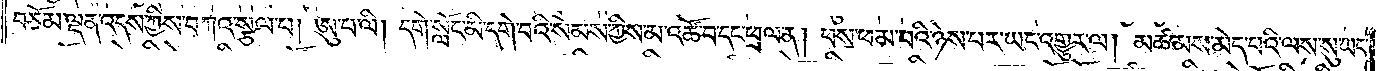བཅོམ་ལྡན་འདས་ཀྱིས་བཀའ་སྩལ་པ། ཨུ་པ་ལི། དགེ་སློང་མི་དགེ་བའི་སེམས་ཀྱིས་མ་འཚོ་བ་དང་ཕྲལ་ན། ཕས་ཕམ་པའི་ཉེས་པར་ཡང་འགྱུར་ལ། མཚམས་མེད་པའི་ལས་སུ་ཡང་
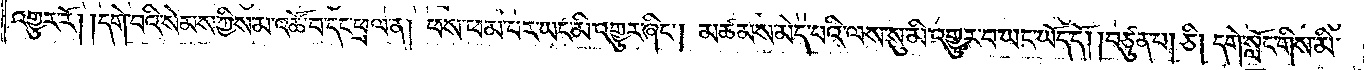འགྱུར་རོ། །དགེ་བའི་སེམས་ཀྱིས་མ་འཚོ་བ་དང་ཕྲལ་ན། ཕས་ཕམ་པར་ཡང་མི་འགྱུར་ཞིང༌། མཚམས་མེད་པའི་ལས་སུ་མི་འགྱུར་བ་ཡང་ཡོད་དོ། །བཙུན་པ། ཅི། དགེ་སློང་གིས་མི་
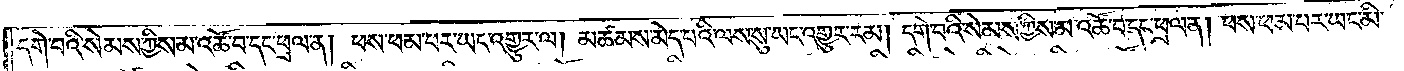དགེ་བའི་སེམས་ཀྱིས་མ་འཚོ་བ་དང་ཕྲལ་ན། ཕས་ཕམ་པར་ཡང་འགྱུར་ལ། མཚམས་མེད་པའི་ལས་སུ་ཡང་འགྱུར་རམ། དགེ་བའི་སེམས་ཀྱིས་མ་འཚོ་བ་དང་ཕྲལ་ན། ཕས་ཕམ་པར་ཡང་མི་
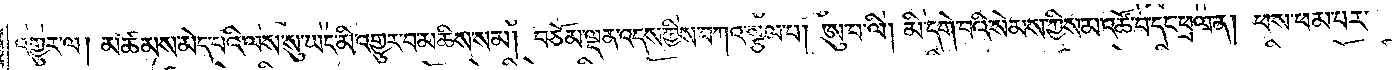འགྱུར་ལ། མཚམས་མེད་པའི་ལས་སུ་ཡང་མི་འགྱུར་བ་མཆིས་སམ། བཅོམ་ལྡན་འདས་ཀྱིས་བཀའ་སྩལ་པ། ཨུ་པ་ལི། མི་དགེ་བའི་སེམས་ཀྱིས་མ་འཚོ་བ་དང་ཕྲལ་ན། ཕས་ཕམ་པར་
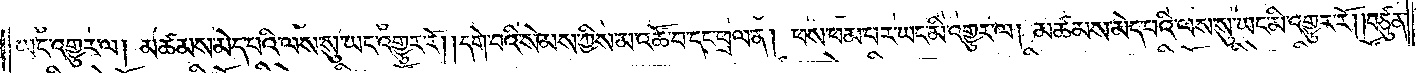ཡང་འགྱུར་ལ། མཚམས་མེད་པའི་ལས་སུ་ཡང་འགྱུར་རོ། །དགེ་བའི་སེམས་ཀྱིས་མ་འཚོ་བ་དང་ཕྲལ་ན། ཕས་ཕམ་པར་ཡང་མི་འགྱུར་ལ། མཚམས་མེད་པའི་ལས་སུ་ཡང་མི་འགྱུར་རོ། །བཙུན་
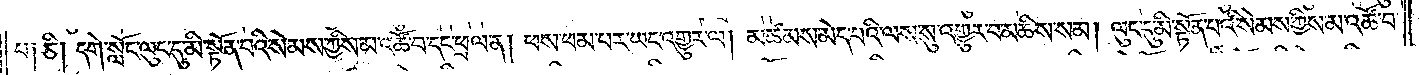པ༑ ཅི། དགེ་སློང་ལུང་དུ་མི་སྟོན་པའི་སེམས་ཀྱིས་མ་འཚོ་བ་དང་ཕྲལ་ན། ཕས་ཕམ་པར་ཡང་འགྱུར་ལ། མཚམས་མེད་པའི་ལས་སུ་འགྱུར་བ་མཆིས་སམ། ལུང་དུ་མི་སྟོན་པའི་སེམས་ཀྱིས་མ་འཚོ་བ་
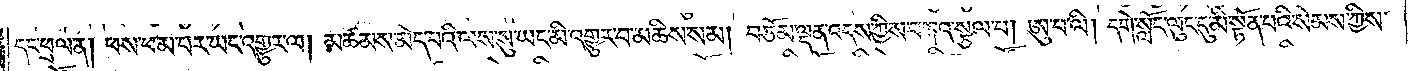དང་ཕྲལ་ན། ཕས་ཕམ་པར་ཡང་འགྱུར་ལ། མཚམས་མེད་པའི་ལས་སུ་ཡང་མི་འགྱུར་བ་མཆིས་སམ། བཅོམ་ལྡན་འདས་ཀྱིས་བཀའ་སྩལ་པ། ཨུ་པ་ལི། དགེ་སློང་ལུང་དུ་མི་སྟོན་པའི་སེམས་ཀྱིས་
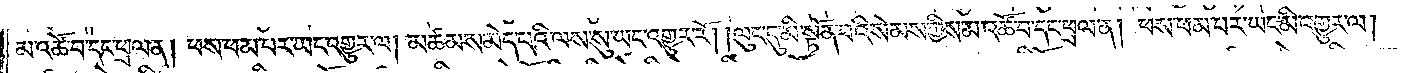མ་འཚོ་བ་དང་ཕྲལ་ན། ཕས་ཕམ་པར་ཡང་འགྱུར་ལ། མཚམས་མེད་པའི་ལས་སུ་ཡང་འགྱུར་རོ། །ལུང་དུ་མི་སྟོན་པའི་སེམས་ཀྱིས་མ་འཚོ་བ་དང་ཕྲལ་ན། ཕས་ཕམ་པར་ཡང་མི་འགྱུར་ལ།
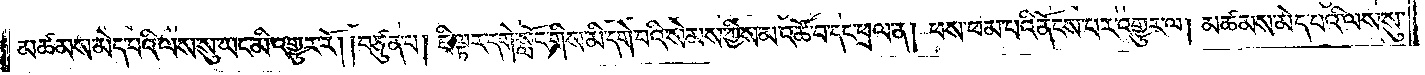མཚམས་མེད་པའི་ལས་སུ་ཡང་མི་འགྱུར་རོ། །བཙུན་པ། ཇི་ལྟར་དགེ་སློང་གིས་མི་དགེ་བའི་སེམས་ཀྱིས་མ་འཚོ་བ་དང་ཕྲལ་ན། ཕས་ཕམ་པའི་ནོངས་པར་འགྱུར་ལ། མཚམས་མེད་པའི་ལས་སུ་
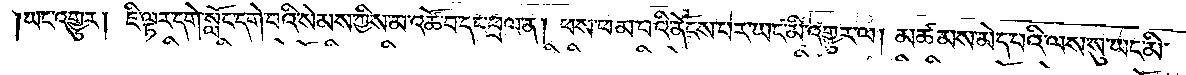ཡང་འགྱུར། ཇི་ལྟར་དགེ་སློང་དགེ་བའི་སེམས་ཀྱིས་མ་འཚོ་བ་དང་ཕྲལ་ན། ཕས་ཕམ་པའི་ནོངས་པར་ཡང་མི་འགྱུར་ལ། མཚམས་མེད་པའི་ལས་སུ་ཡང་མི་
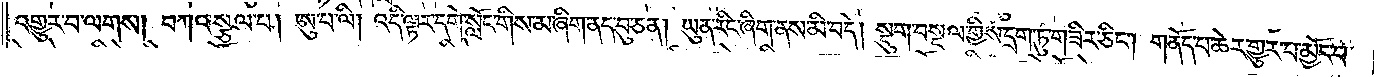འགྱུར་བ་ལགས། བཀའ་སྩལ་པ། ཨུ་པ་ལི། འདི་ལྟར་དགེ་སློང་གིས་མ་ཞིག་ནད་བུ་ཅན། ཡུན་རིང་ཞིག་ནས་མི་བདེ། སྡུག་བསྔལ་གྱིས་དྲག་ཏུ་གཟིར་ཅིང༌། གནོད་པ་ཆེར་གྱུར་པ་མྱོང་བ་
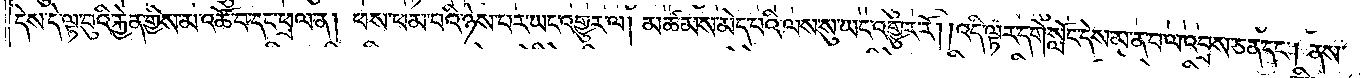དེས་དེ་ལྟ་བུའི་རྐྱེན་གྱིས་མ་འཚོ་བ་དང་ཕྲལ་ན། ཕས་ཕམ་པའི་ཉེས་པར་ཡང་འགྱུར་ལ། མཚམས་མེད་པའི་ལས་སུ་ཡང་འགྱུར་རོ། །འདི་ལྟར་དགེ་སློང་དེས་མ་ན་བ་ལ་འབྲས་ཅན་དང༌། ནས་
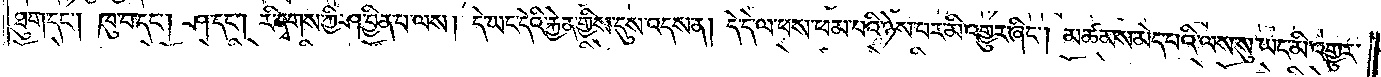ཐུག་དང༌། ཁུ་བ་དང༌། ཤ་དང༌། རི་དྭགས་ཀྱི་ཤ་བྱིན་པ་ལས། དེ་ཡང་དེའི་རྐྱེན་གྱིས་དུས་འདས་ན། དེ་དེ་ལ་ཕས་ཕམ་པའི་ཉེས་པར་མི་འགྱུར་ཞིང༌། མཚམས་མེད་པའི་ལས་སུ་ཡང་མི་འགྱུར་
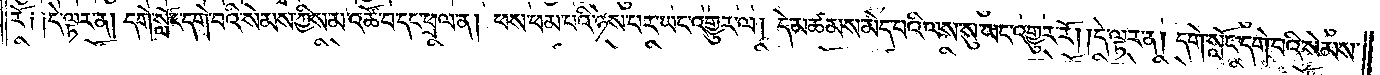རོ༑ ༑དེ་ལྟར་ན། དགེ་སློང་དགེ་བའི་སེམས་ཀྱིས་མ་འཚོ་བ་དང་ཕྲལ་ན། ཕས་ཕམ་པའི་ཉེས་པར་ཡང་འགྱུར་ལ། དེ་མཚམས་མེད་པའི་ལས་སུ་ཡང་འགྱུར་རོ། །དེ་ལྟར་ན། དགེ་སློང་དགེ་བའི་སེམས་
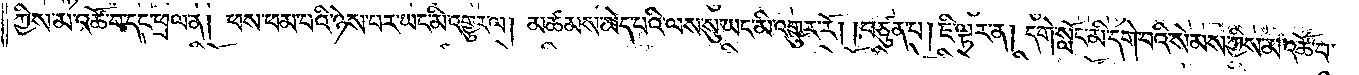ཀྱིས་མ་འཚོ་བ་དང་ཕྲལ་ན། ཕས་ཕམ་པའི་ཉེས་པར་ཡང་མི་འགྱུར་ལ། མཚམས་མེད་པའི་ལས་སུ་ཡང་མི་འགྱུར་རོ། །བཙུན་པ། ཇི་ལྟར་ན། དགེ་སློང་མི་དགེ་བའི་སེམས་ཀྱིས་མ་འཚོ་བ་
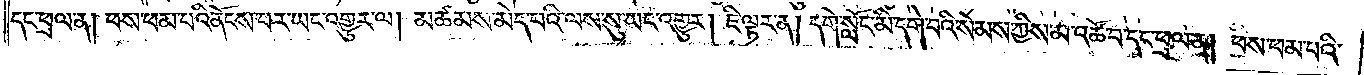དང་ཕྲལ་ན། ཕས་ཕམ་པའི་ནོངས་པར་ཡང་འགྱུར་ལ། མཚམས་མེད་པའི་ལས་སུ་ཡང་འགྱུར། ཇི་ལྟར་ན། དགེ་སློང་མི་དགེ་བའི་སེམས་ཀྱིས་མ་འཚོ་བ་དང་ཕྲལ་ན། ཕས་ཕམ་པའི་
